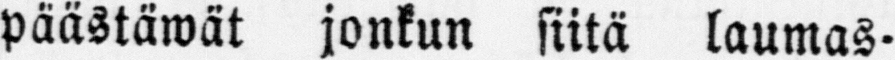päästäwät jonkun siitä laumas-
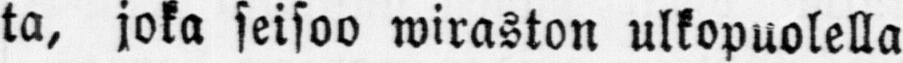ta, joka seisoo wiraston ulkopuolella
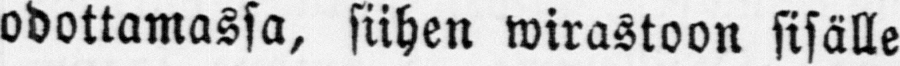odottamassa, siihen wirastoon sisälle
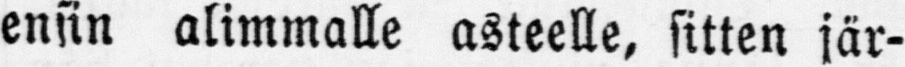ensin alimmalle asteelle, sitten jär-
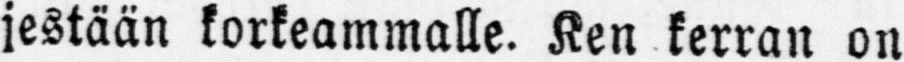jestään korkeammalle. Ken kerran on
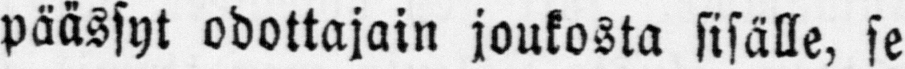päässyt odottajain joukosta sisälle, se
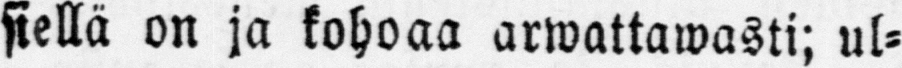siellä on ja kohoaa arwattawasti; ul-
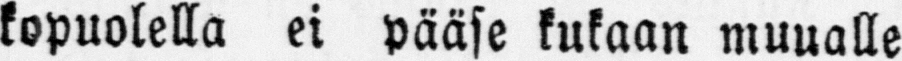kopuolella ei pääse kukaan muualle
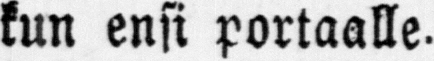kun ensi portaalle.
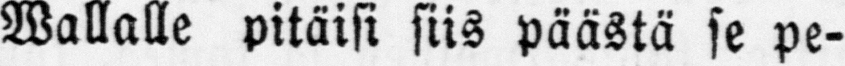Wallalle pitäisi siis päästä se pe-
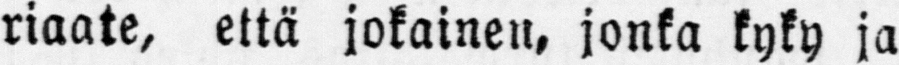riaate, että jokainen, jonka kyky ja
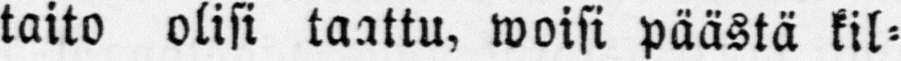taito olisi taattu, woisi päästä kil-
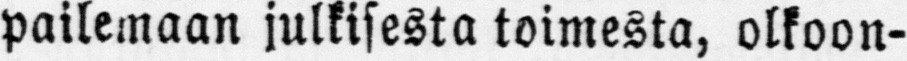pailemaan julkisesta toimesta, olkoon-
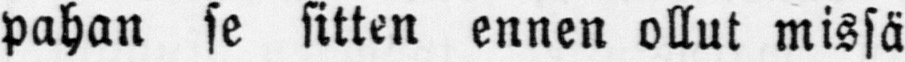pahan se sitten ennen ollut missä
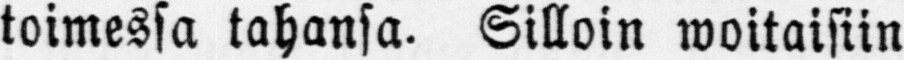toimessa tahansa. Silloin woitaisiin
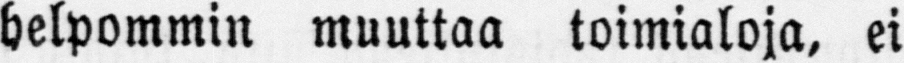helpommin muuttaa toimialoja, ei
